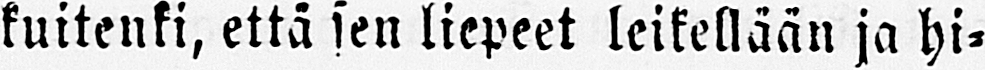kuitenki, että sen liepeet leikettään ja hi-
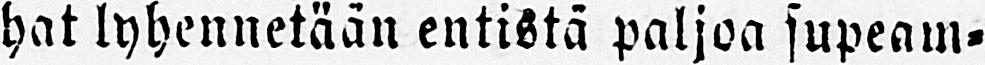hat lyhennetään entistä paljoa supeam-
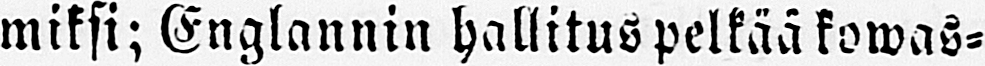miksi; Englannin hallitus pelkää kowas-
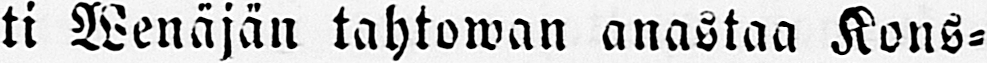ti Wenäjän tahtowan anastaa Kons-
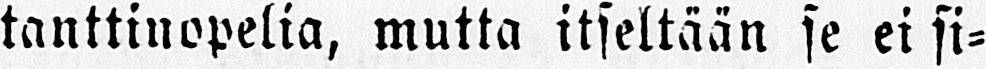tanttinopelia, mutta itseltään se ei si-
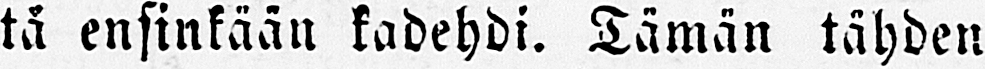tä ensinkään kadehdi. Tämän tähden
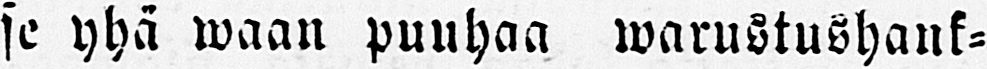se yhä waan puuhaa warustushank-
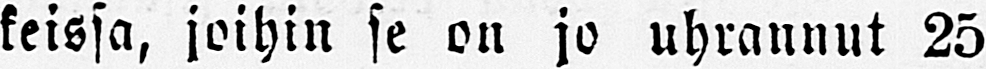keissa, joihin se on jo uhrannut 25
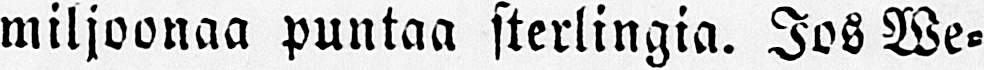miljoonaa puntaa sterlingia. Jos We-
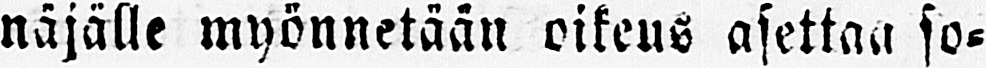näjälle myönnetään oikeus asettaa so-
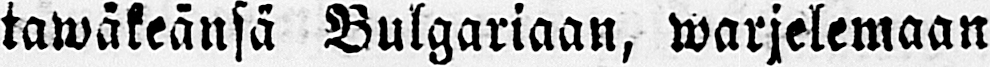tawäkeänsä Bulgariaan, warjelemaan
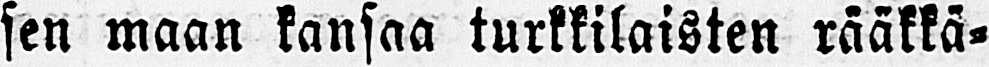sen maan kansaa turkkilaisten rääkkä-
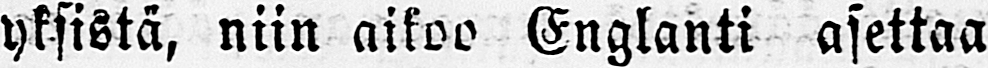yksistä, niin aikoo Englanti asettaa
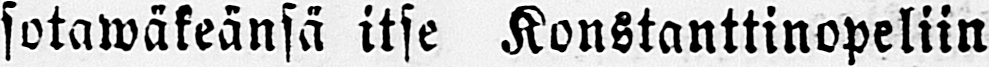sotawäkeänsä itse Konstanttinopeliin
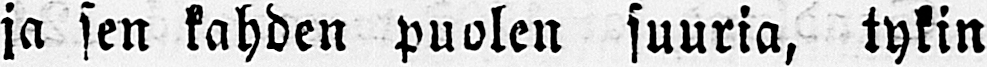ja sen kahden puolen suuria, tykin
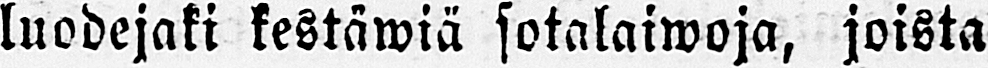luodejaki kestäwiä sotalaiwoja, joista
